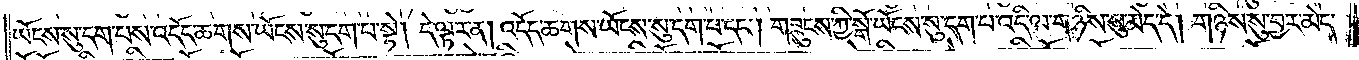ཡོངས་སུ་དག་པས་འདོད་ཆགས་ཡོངས་སུ་དག་པ་སྟེ། དེ་ལྟར་ན། འདོད་ཆགས་ཡོངས་སུ་དག་པ་དང༌། གཟུངས་ཀྱི་སྒོ་ཡོངས་སུ་དག་པ་འདི་ལ་གཉིས་སུ་མེད་དེ། གཉིས་སུ་བྱར་མེད་
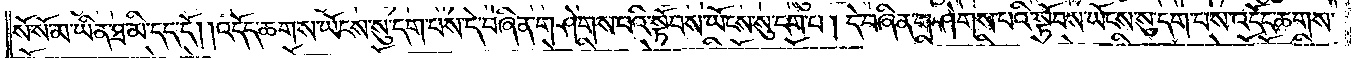སོ་སོ་མ་ཡིན་ཐ་མི་དད་དོ། །འདོད་ཆགས་ཡོངས་སུ་དག་པས་དེ་བཞིན་གཤེགས་པའི་སྟོབས་ཡོངས་སུ་དག་པ། དེ་བཞིན་གཤེགས་པའི་སྟོབས་ཡོངས་སུ་དག་པས་འདོད་ཆགས་
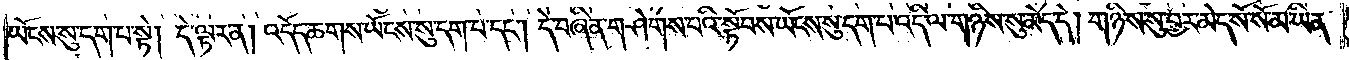ཡོངས་སུ་དག་པ་སྟེ། དེ་ལྟར་ན། འདོད་ཆགས་ཡོངས་སུ་དག་པ་དང༌། དེ་བཞིན་གཤེགས་པའི་སྟོབས་ཡོངས་སུ་དག་པ་འདི་ལ་གཉིས་སུ་མེད་དེ། གཉིས་སུ་བྱར་མེད་སོ་སོ་མ་ཡིན་
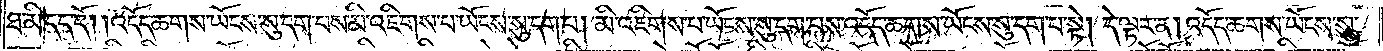ཐ་མི་དད་དོ། །འདོད་ཆགས་ཡོངས་སུ་དག་པས་མི་འཇིགས་པ་ཡོངས་སུ་དག་པ། མི་འཇིགས་པ་ཡོངས་སུ་དག་པས་འདོད་ཆགས་ཡོངས་སུ་དག་པ་སྟེ། དེ་ལྟར་ན། འདོད་ཆགས་ཡོངས་སུ་
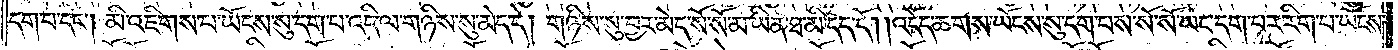དག་པ་དང༌། མི་འཇིགས་པ་ཡོངས་སུ་དག་པ་འདི་ལ་གཉིས་སུ་མེད་དེ། གཉིས་སུ་བྱར་མེད་སོ་སོ་མ་ཡིན་ཐ་མི་དད་དོ། །འདོད་ཆགས་ཡོངས་སུ་དག་པས་སོ་སོ་ཡང་དག་པར་རིག་པ་ཡོངས་
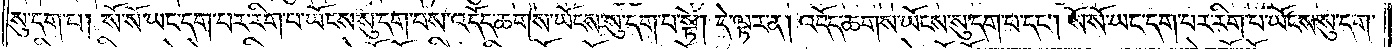སུ་དག་པ། སོ་སོ་ཡང་དག་པར་རིག་པ་ཡོངས་སུ་དག་པས་འདོད་ཆགས་ཡོངས་སུ་དག་པ་སྟེ། དེ་ལྟར་ན། འདོད་ཆགས་ཡོངས་སུ་དག་པ་དང༌། སོ་སོ་ཡང་དག་པར་རིག་པ་ཡོངས་སུ་དག་
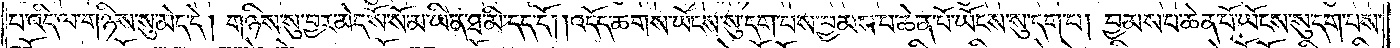པ་འདི་ལ་གཉིས་སུ་མེད་དེ། གཉིས་སུ་བྱར་མེད་སོ་སོ་མ་ཡིན་ཐ་མི་དད་དོ། །འདོད་ཆགས་ཡོངས་སུ་དག་པས་བྱམས་པ་ཆེན་པོ་ཡོངས་སུ་དག་པ། བྱམས་པ་ཆེན་པོ་ཡོངས་སུ་དག་པས་
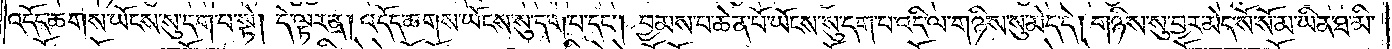འདོད་ཆགས་ཡོངས་སུ་དག་པ་སྟེ། དེ་ལྟར་ན། འདོད་ཆགས་ཡོངས་སུ་དག་པ་དང༌། བྱམས་པ་ཆེན་པོ་ཡོངས་སུ་དག་པ་འདི་ལ་གཉིས་སུ་མེད་དེ། གཉིས་སུ་བྱར་མེད་སོ་སོ་མ་ཡིན་ཐ་མི་
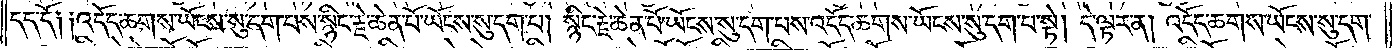དད་དོ༑ ༑འདོད་ཆགས་ཡོངས་སུ་དག་པས་སྙིང་རྗེ་ཆེན་པོ་ཡོངས་སུ་དག་པ། སྙིང་རྗེ་ཆེན་པོ་ཡོངས་སུ་དག་པས་འདོད་ཆགས་ཡོངས་སུ་དག་པ་སྟེ། དེ་ལྟར་ན། འདོད་ཆགས་ཡོངས་སུ་དག་
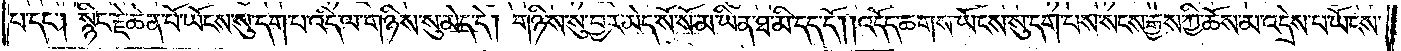པ་དང༌། སྙིང་རྗེ་ཆེན་པོ་ཡོངས་སུ་དག་པ་འདི་ལ་གཉིས་སུ་མེད་དེ། གཉིས་སུ་བྱར་མེད་སོ་སོ་མ་ཡིན་ཐ་མི་དད་དོ། །འདོད་ཆགས་ཡོངས་སུ་དག་པས་སངས་རྒྱས་ཀྱི་ཆོས་མ་འདྲེས་པ་ཡོངས་
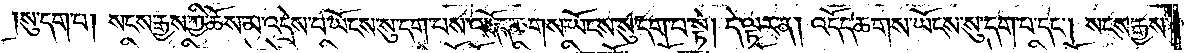སུ་དག་པ། སངས་རྒྱས་ཀྱི་ཆོས་མ་འདྲེས་པ་ཡོངས་སུ་དག་པས་འདོད་ཆགས་ཡོངས་སུ་དག་པ་སྟེ། དེ་ལྟར་ན། འདོད་ཆགས་ཡོངས་སུ་དག་པ་དང༌། སངས་རྒྱས་
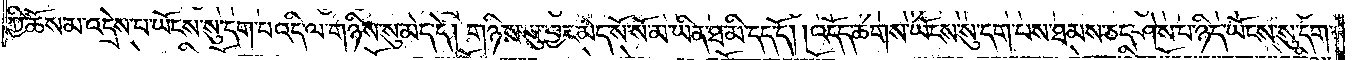ཀྱི་ཆོས་མ་འདྲེས་པ་ཡོངས་སུ་དག་པ་འདི་ལ་གཉིས་སུ་མེད་དེ། གཉིས་སུ་བྱར་མེད་སོ་སོ་མ་ཡིན་ཐ་མི་དད་དོ། །འདོད་ཆགས་ཡོངས་སུ་དག་པས་ཐམས་ཅད་ཤེས་པ་ཉིད་ཡོངས་སུ་དག་
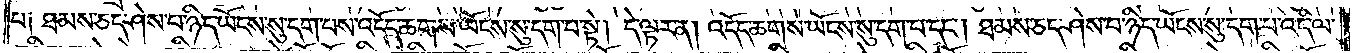པ༑ ཐམས་ཅད་ཤེས་པ་ཉིད་ཡོངས་སུ་དག་པས་འདོད་ཆགས་ཡོངས་སུ་དག་པ་སྟེ། དེ་ལྟར་ན། འདོད་ཆགས་ཡོངས་སུ་དག་པ་དང༌། ཐམས་ཅད་ཤེས་པ་ཉིད་ཡོངས་སུ་དག་པ་འདི་ལ་
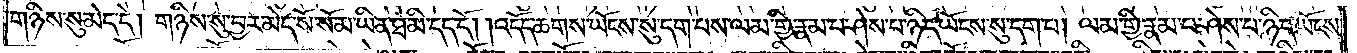གཉིས་སུ་མེད་དེ། གཉིས་སུ་བྱར་མེད་སོ་སོ་མ་ཡིན་ཐ་མི་དད་དོ། །འདོད་ཆགས་ཡོངས་སུ་དག་པས་ལམ་གྱི་རྣམ་པ་ཤེས་པ་ཉིད་ཡོངས་སུ་དག་པ། ལམ་གྱི་རྣམ་པར་ཤེས་པ་ཉིད་ཡོངས་
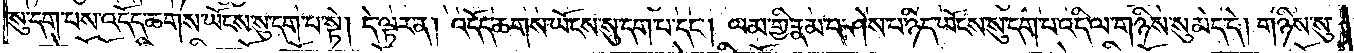སུ་དག་པས་འདོད་ཆགས་ཡོངས་སུ་དག་པ་སྟེ། དེ་ལྟར་ན། འདོད་ཆགས་ཡོངས་སུ་དག་པ་དང༌། ལམ་གྱི་རྣམ་པ་ཤེས་པ་ཉིད་ཡོངས་སུ་དག་པ་འདི་ལ་གཉིས་སུ་མེད་དེ། གཉིས་སུ་
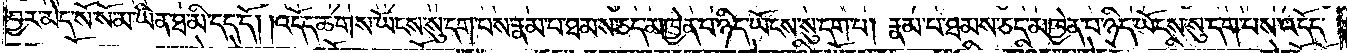བྱར་མེད་སོ་སོ་མ་ཡིན་ཐ་མི་དད་དོ། །འདོད་ཆགས་ཡོངས་སུ་དག་པས་རྣམ་པ་ཐམས་ཅད་མཁྱེན་པ་ཉིད་ཡོངས་སུ་དག་པ། རྣམ་པ་ཐམས་ཅད་མཁྱེན་པ་ཉིད་ཡོངས་སུ་དག་པས་འདོད་
